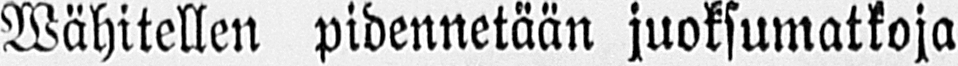Wähitellen pidennetään juoksumatkoja
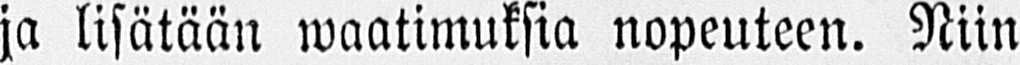ja lisätään waatimuksia nopeuteen. Niin
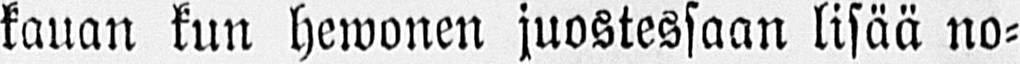kanan kun hewonen juostessaan lisää no-
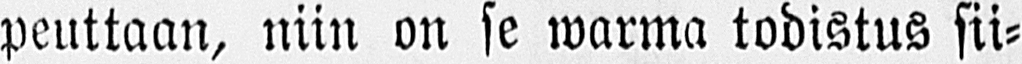peuttaan, niin on se warma todistus sii-
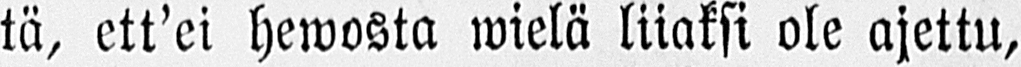tä, ett’ei hewosta wielä liiaksi ole ajettu,
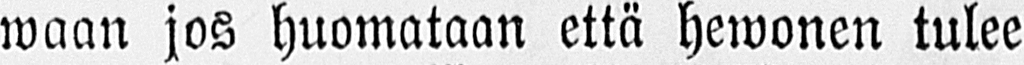waan jos huomataan että hewonen tulee
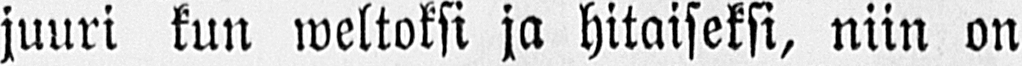juuri kun weltoksi ja hitaiseksi, niin on
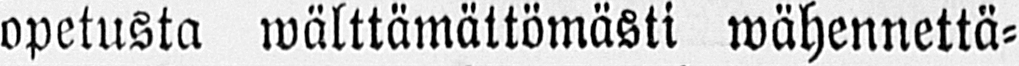opetusta wälttämättömästi wähennettä-
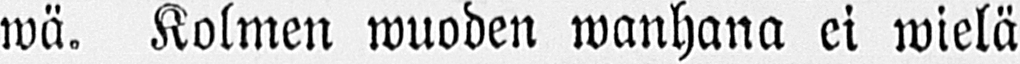wä. Kolmen wuoden wanhana ei wielä
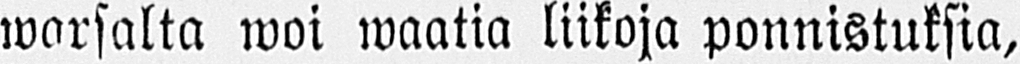warsalta woi waatia liikoja ponnistuksia,
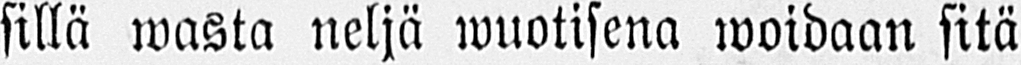sillä wasta neljä wuotisena woidaan sitä
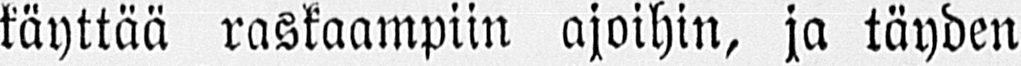käyttää raskaampiin ajoihin, ja täyden
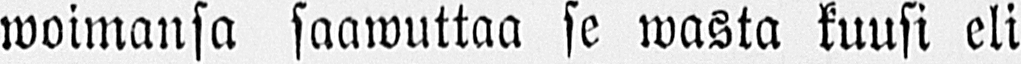woimansa saawuttaa se wasta kuusi eli
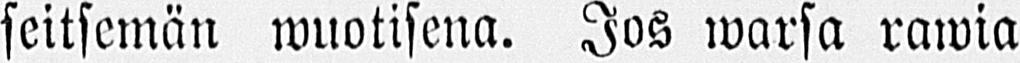seitsemän wuotisena. Jos warsa rawia
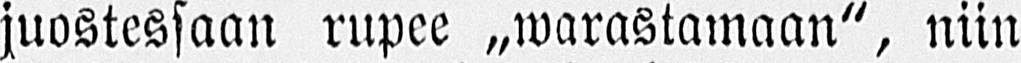juostessaan rupee „warastamaan", niin
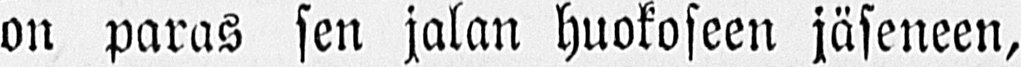on paras sen jalan huokoseen jäseneen,
